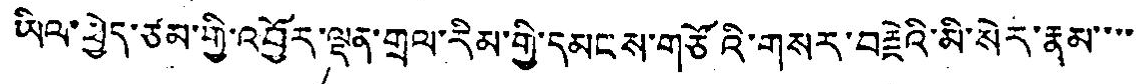ཡིལ་ཕྱེད་ཙམ་གྱི་འབྱོར་ལྡན་གྲལ་རིམ་གྱི་དམངས་གཙོའི་གསར་བརྗེའི་མི་སེར་རྣམ་་་་
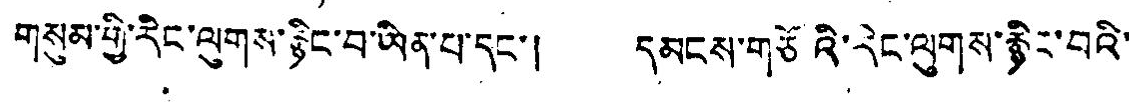གསུམ་གྱི་རིང་ལུགས་རྙིང་བ་ཡིན་པ་དང་། དམངས་གཙོའི་རེང་ལུགས་རྙིང་བའི་
